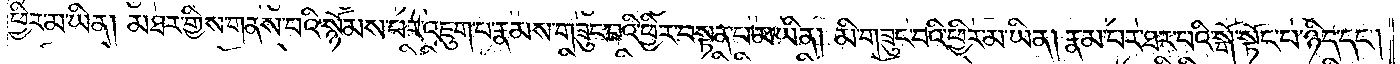ཕྱིར་མ་ཡིན། མཐར་གྱིས་གནས་པའི་སྙོམས་པར་འཇུག་པ་རྣམས་གཟུང་བའི་ཕྱིར་བསྟན་པ་མ་ཡིན། མི་གཟུང་བའི་ཕྱིར་མ་ཡིན། རྣམ་པར་ཐར་པའི་སྒོ་སྟོང་པ་ཉིད་དང༌།
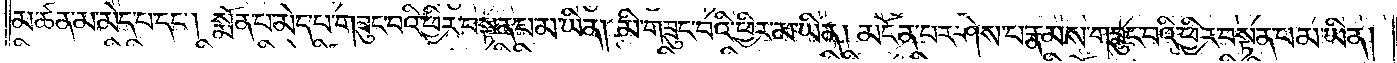མཚན་མ་མེད་པ་དང༌། སྨོན་པ་མེད་པ་གཟུང་བའི་ཕྱིར་བསྟན་པ་མ་ཡིན། མི་གཟུང་བའི་ཕྱིར་མ་ཡིན། མངོན་པར་ཤེས་པ་རྣམས་གཟུང་བའི་ཕྱིར་བསྟན་པ་མ་ཡིན།
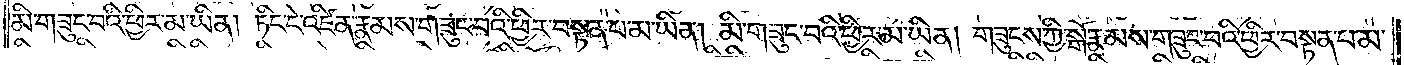མི་གཟུང་བའི་ཕྱིར་མ་ཡིན། ཏིང་ངེ་འཛིན་རྣམས་གཟུང་བའི་ཕྱིར་བསྟན་པ་མ་ཡིན། མི་གཟུང་བའི་ཕྱིར་མ་ཡིན། གཟུངས་ཀྱི་སྒོ་རྣམས་གཟུང་བའི་ཕྱིར་བསྟན་པ་མ་
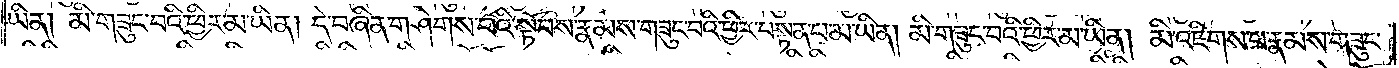ཡིན། མི་གཟུང་བའི་ཕྱིར་མ་ཡིན། དེ་བཞིན་གཤེགས་པའི་སྟོབས་རྣམས་གཟུང་བའི་ཕྱིར་བསྟན་པ་མ་ཡིན། མི་གཟུང་བའི་ཕྱིར་མ་ཡིན། མི་འཇིགས་པ་རྣམས་གཟུང་
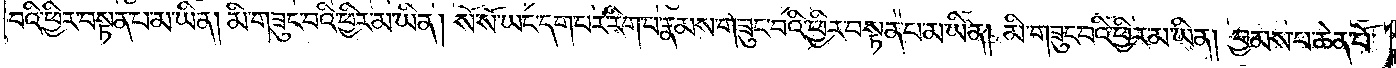བའི་ཕྱིར་བསྟན་པ་མ་ཡིན། མི་གཟུང་བའི་ཕྱིར་མ་ཡིན། སོ་སོ་ཡང་དག་པར་རིག་པ་རྣམས་གཟུང་བའི་ཕྱིར་བསྟན་པ་མ་ཡིན། མི་གཟུང་བའི་ཕྱིར་མ་ཡིན། བྱམས་པ་ཆེན་པོ་
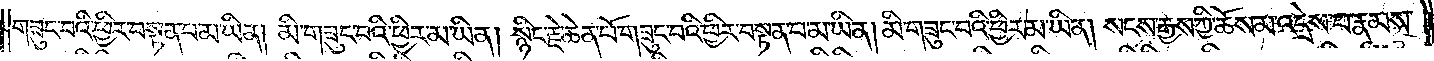གཟུང་བའི་ཕྱིར་བསྟན་པ་མ་ཡིན། མི་གཟུང་བའི་ཕྱིར་མ་ཡིན། སྙིང་རྗེ་ཆེན་པོ་གཟུང་བའི་ཕྱིར་བསྟན་པ་མ་ཡིན། མི་གཟུང་བའི་ཕྱིར་མ་ཡིན། སངས་རྒྱས་ཀྱི་ཆོས་མ་འདྲེས་པ་རྣམས་
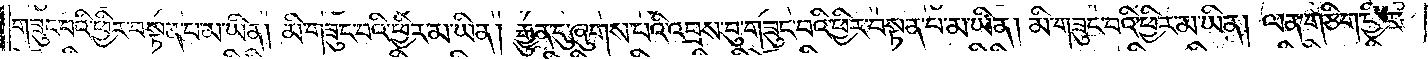གཟུང་བའི་ཕྱིར་བསྟན་པ་མ་ཡིན། མི་གཟུང་བའི་ཕྱིར་མ་ཡིན། རྒྱུན་དུ་ཞུགས་པའི་འབྲས་བུ་གཟུང་བའི་ཕྱིར་བསྟན་པ་མ་ཡིན། མི་གཟུང་བའི་ཕྱིར་མ་ཡིན། ལན་གཅིག་ཕྱིར་
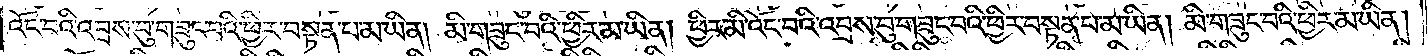འོང་བའི་འབྲས་བུ་གཟུང་བའི་ཕྱིར་བསྟན་པ་མ་ཡིན། མི་གཟུང་བའི་ཕྱིར་མ་ཡིན། ཕྱིར་མི་འོང་བའི་འབྲས་བུ་གཟུང་བའི་ཕྱིར་བསྟན་པ་མ་ཡིན། མི་གཟུང་བའི་ཕྱིར་མ་ཡིན།
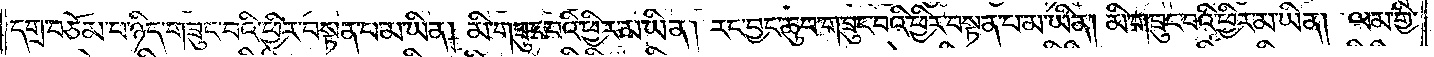དགྲ་བཅོམ་པ་ཉིད་གཟུང་བའི་ཕྱིར་བསྟན་པ་མ་ཡིན། མི་གཟུང་བའི་ཕྱིར་མ་ཡིན། རང་བྱང་ཆུབ་གཟུང་བའི་ཕྱིར་བསྟན་པ་མ་ཡིན། མི་གཟུང་བའི་ཕྱིར་མ་ཡིན། ལམ་གྱི་
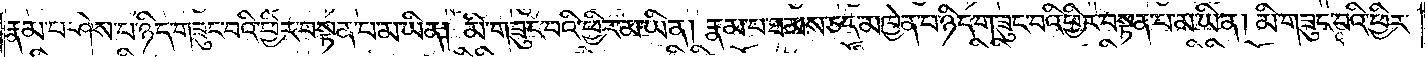རྣམ་པ་ཤེས་པ་ཉིད་གཟུང་བའི་ཕྱིར་བསྟན་པ་མ་ཡིན། མི་གཟུང་བའི་ཕྱིར་མ་ཡིན། རྣམ་པ་ཐམས་ཅད་མཁྱེན་པ་ཉིད་གཟུང་བའི་ཕྱིར་བསྟན་པ་མ་ཡིན། མི་གཟུང་བའི་ཕྱིར་
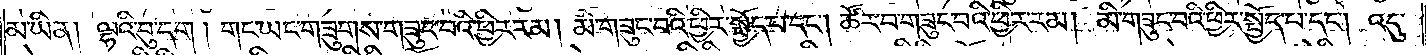མ་ཡིན། ལྷའི་བུ་དག །གང་ཡང་གཟུགས་གཟུང་བའི་ཕྱིར་རམ། མི་གཟུང་བའི་ཕྱིར་སྤྱོད་པ་དང༌། ཚོར་བ་གཟུང་བའི་ཕྱིར་རམ། མི་གཟུང་བའི་ཕྱིར་སྤྱོད་པ་དང༌། འདུ་
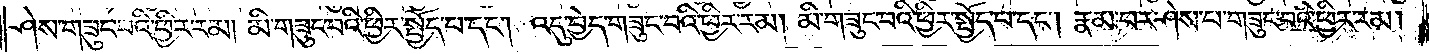ཤེས་གཟུང་བའི་ཕྱིར་རམ། མི་གཟུང་བའི་ཕྱིར་སྤྱོད་པ་དང༌། འདུ་བྱེད་གཟུང་བའི་ཕྱིར་རམ། མི་གཟུང་བའི་ཕྱིར་སྤྱོད་པ་དང༌། རྣམ་པར་ཤེས་པ་གཟུང་བའི་ཕྱིར་རམ།
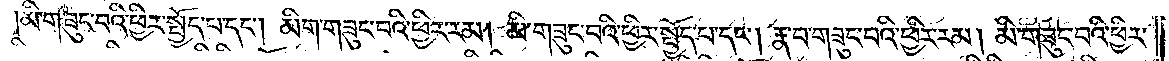མི་གཟུང་བའི་ཕྱིར་སྤྱོད་པ་དང༌། མིག་གཟུང་བའི་ཕྱིར་རམ། མི་གཟུང་བའི་ཕྱིར་སྤྱོད་པ་དང༌། རྣ་བ་གཟུང་བའི་ཕྱིར་རམ། མི་གཟུང་བའི་ཕྱིར་
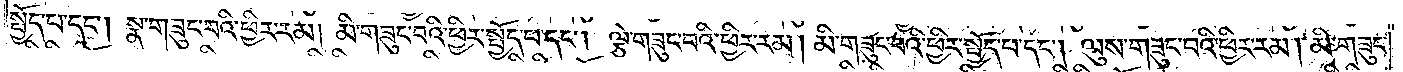སྤྱོད་པ་དང༌། སྣ་གཟུང་བའི་ཕྱིར་རམ། མི་གཟུང་བའི་ཕྱིར་སྤྱོད་པ་དང༌། ལྕེ་གཟུང་བའི་ཕྱིར་རམ། མི་གཟུང་བའི་ཕྱིར་སྤྱོད་པ་དང༌། ལུས་གཟུང་བའི་ཕྱིར་རམ། མི་གཟུང་
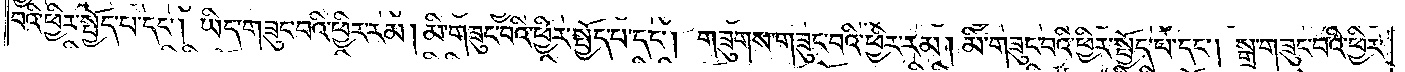བའི་ཕྱིར་སྤྱོད་པ་དང༌། ཡིད་གཟུང་བའི་ཕྱིར་རམ། མི་གཟུང་བའི་ཕྱིར་སྤྱོད་པ་དང༌། གཟུགས་གཟུང་བའི་ཕྱིར་རམ། མི་གཟུང་བའི་ཕྱིར་སྤྱོད་པ་དང༌། སྒྲ་གཟུང་བའི་ཕྱིར་
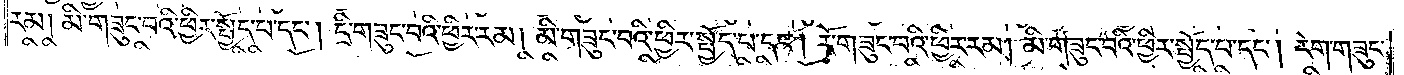རམ། མི་གཟུང་བའི་ཕྱིར་སྤྱོད་པ་དང༌། དྲི་གཟུང་བའི་ཕྱིར་རམ། མི་གཟུང་བའི་ཕྱིར་སྤྱོད་པ་དང༌། རོ་གཟུང་བའི་ཕྱིར་རམ། མི་གཟུང་བའི་ཕྱིར་སྤྱོད་པ་དང༌། རེག་གཟུང་
